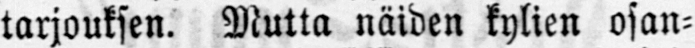tarjouksen. Mutta näiden kylien osan-
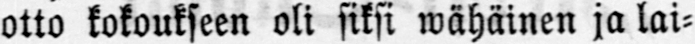otto kokoukseen oli siksi wähäinen ja lai-
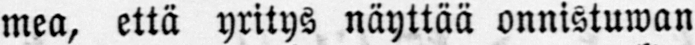mea, että yritys näyttää onnistuwan
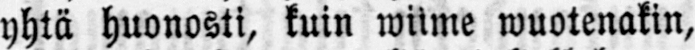yhtä huonosti, kuin wiime wuotenakin,
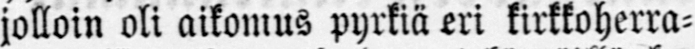jolloin oli aikomus pyrkiä eri kirkkoherra-
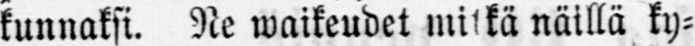kunnaksi. Ne waikeudet mitkä näillä ky-
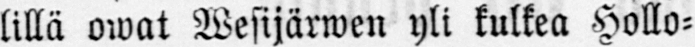lillä owat Wesijärwen yli kulkea Hollo-
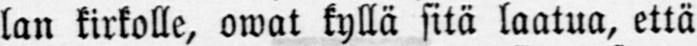lan kirkolle, owat kyllä sitä laatua, että
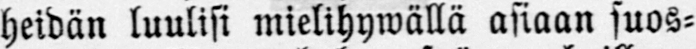heidän luulisi mielihywällä asiaan suos-
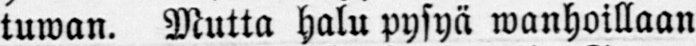tuwan. Mutta halu pysyä wanhoillaan
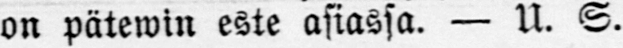on pätewin este asiassa. — U. S.
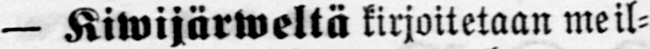— Kiwijärweltä kirjoitetaan meil-
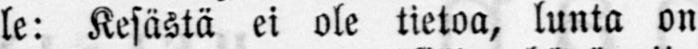le: Kesästä ei ole tietoa, lunta on
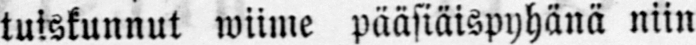tuiskunnut wiime pääsiäispyhänä niin
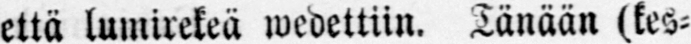että lumirekeä wedettiin. Tänään (kes-
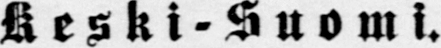Keski-Suomi.
